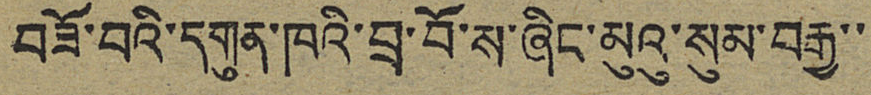བཟོ་བའི་དགུན་ཁའི་བྲ་བོ་ས་ཞིང་མུའུ་སུམ་བརྒྱ་་
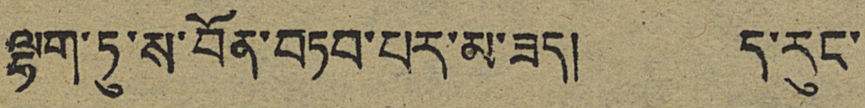ལྷག་ཏུ་ས་བོན་བཏབ་པར་མ་ཟད། ད་རུང་
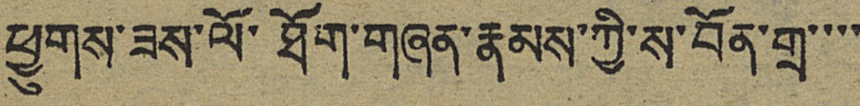ཕྱུགས་ཟས་ལོ་ཐོག་གཞན་རྣམས་ཀྱི་ས་བོན་གྲ་་་་
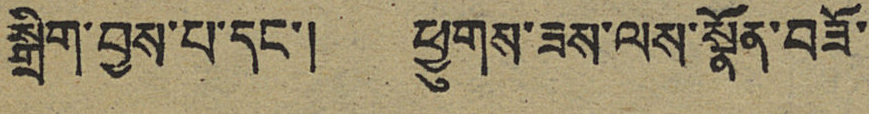སྒྲིག་བྱས་པ་དང་། ཕྱུགས་ཟས་ལས་སྣོན་བཟོ་
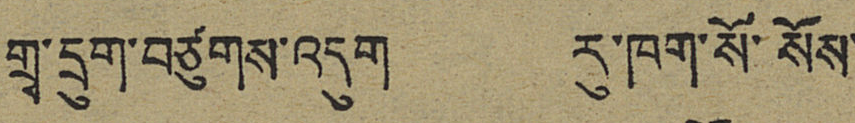གྲྭ་དྲུག་བཙུགས་འདུག རུ་ཁག་སོ་སོས་
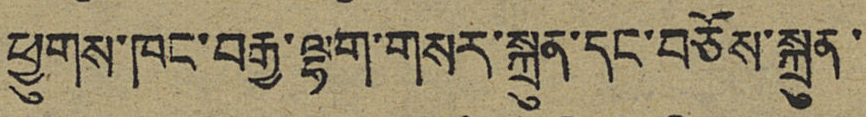ཕྱུགས་ཁང་བརྒྱ་ལྷག་གསར་སྐྲུན་དང་བཅོས་སྐྲུན་
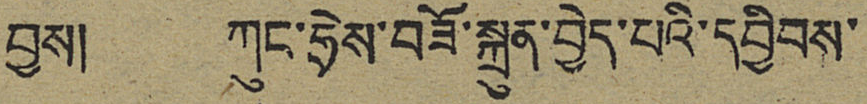བྱས། ཀུང་ཧྲེས་བཟོ་སྐྲུན་བྱེད་པའི་དབྱིབས་
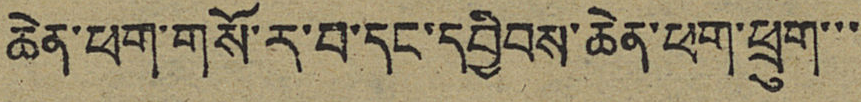ཆེན་ཕག་གསོ་ར་བ་དང་དབྱིབས་ཆེན་ཕག་ཕྲུག་་་
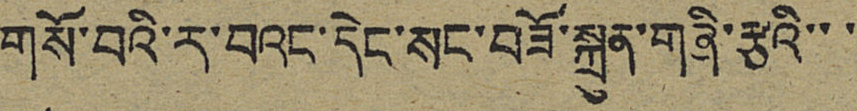གསོ་བའི་ར་བའང་དེང་སང་བཟོ་སྐྲུན་གཞི་རྩའི་་་
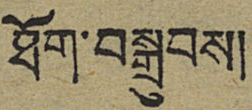ཐོག་བསྒྲུབས།
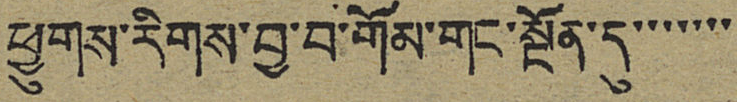ཕྱུགས་རིགས་བྱ་བ་གོམ་གང་སྔོན་དུ་་་་་་་
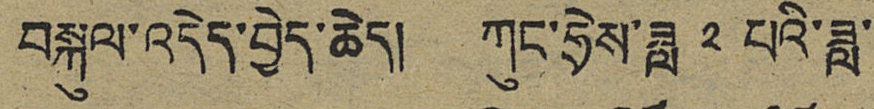བསྐུལ་འདེད་བྱེད་ཆེད། ཀུང་ཧྲེས་ཟླ ༢ པའི་ཟླ་
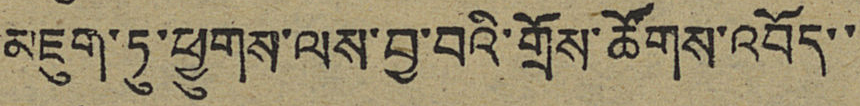མཇུག་ཏུ་ཕྱུགས་ལས་བྱ་བའི་གྲོས་ཚོགས་འབོད་་
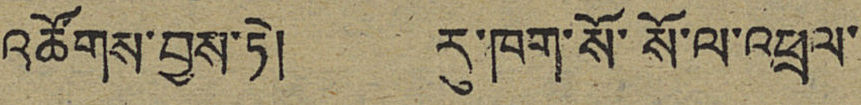འཚོགས་བྱས་ཏེ། རུ་ཁག་སོ་སོ་ལ་འཕྲལ་
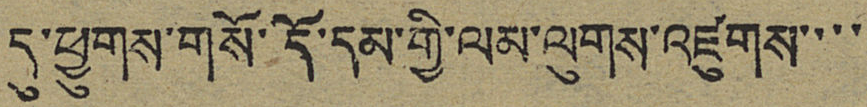དུ་ཕྱུགས་གསོ་དོ་དམ་གྱི་ལམ་ལུགས་འཛུགས་་་་
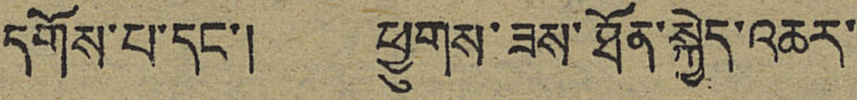དགོས་པ་དང་། ཕྱུགས་ཟས་ཐོན་སྐྱེད་འཆར་
